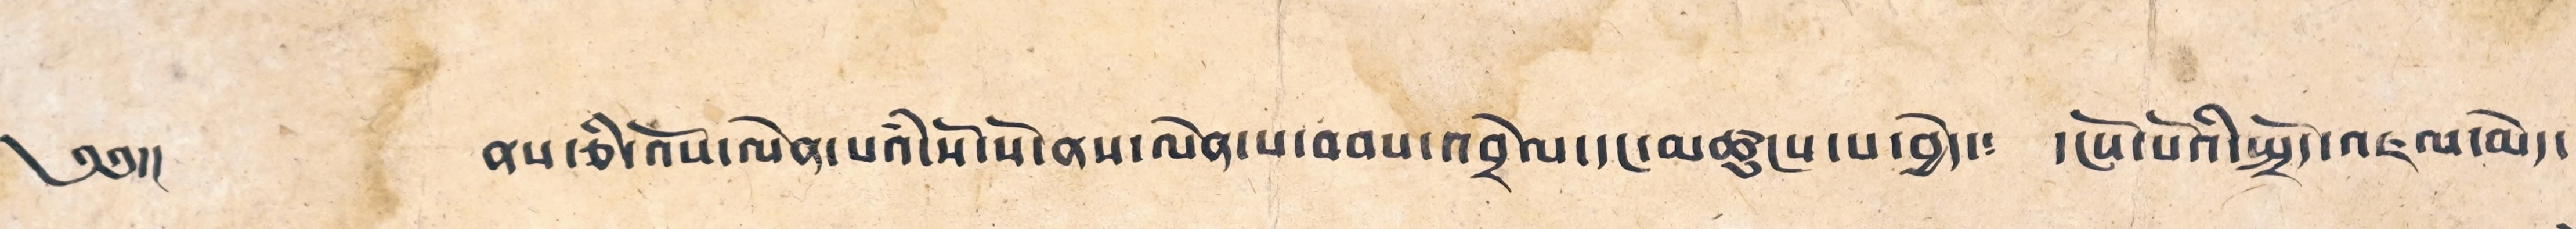༄༅།། ནས་ཅི་འོས་ལེན་པའི་སོ་སོ་ནས་ལེན་པ་བབས་འབྲེལ་དང་མཚངས་པ་བྱེད་༴ དངོས་པོའི་སྤྲོད་འཇལ་མེད་
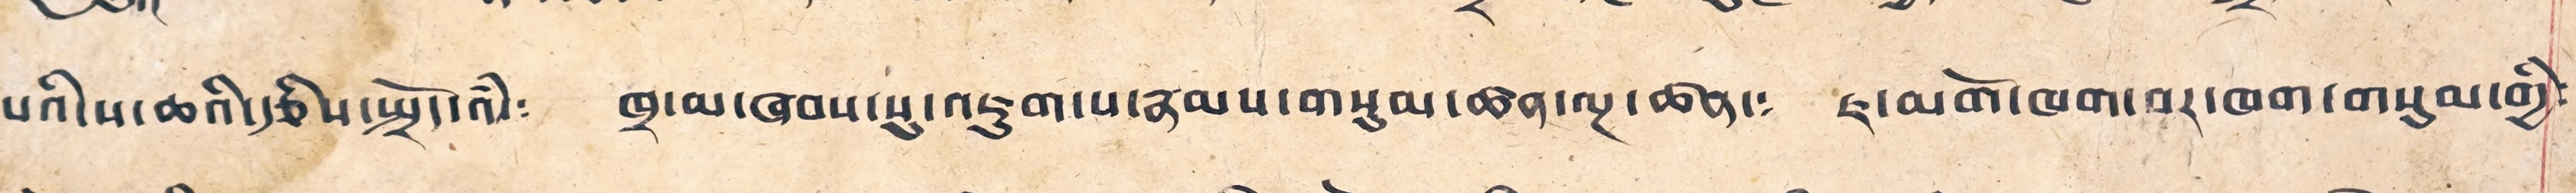པའི་ས་ཆའི་རྩིས་སྤྲོད་འཾ་༴ ཁྲ་མ་ཞབས་སུ་འཇུག་པ་རྣམས་གསུམ་ཚན་ལྔ་ཚན་༴ ཇ་མགོ་ཁག་བར་ཁག་གསུམ་གྱི༴
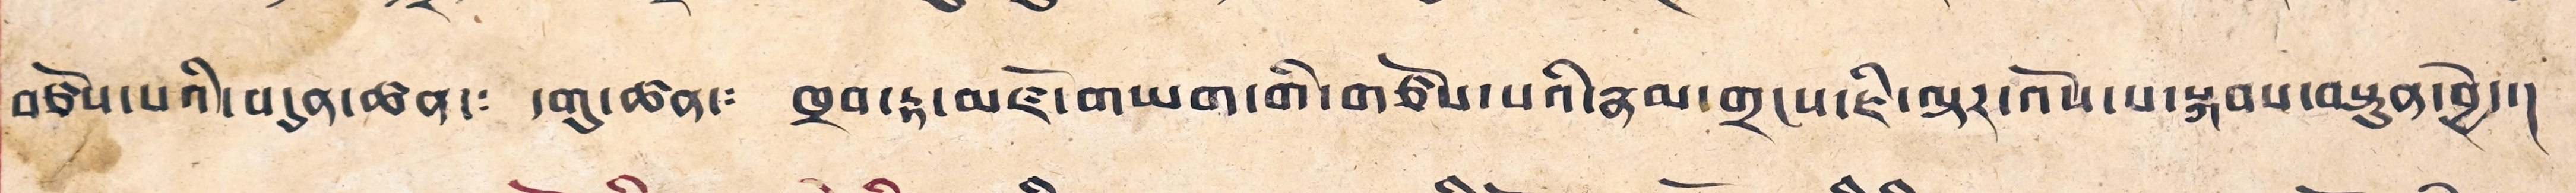བཙོས་པའི་བདུན་ཚན་༴ དགུ་ཚན་༴ ཁྲབ་རྟ་མཛོ་གཡག་གི་གཙོས་པའི་རྣམ་གྲངས་ཇི་ལྟར་འོས་པ་སྐབས་བསྟུན་བྱེད་༴
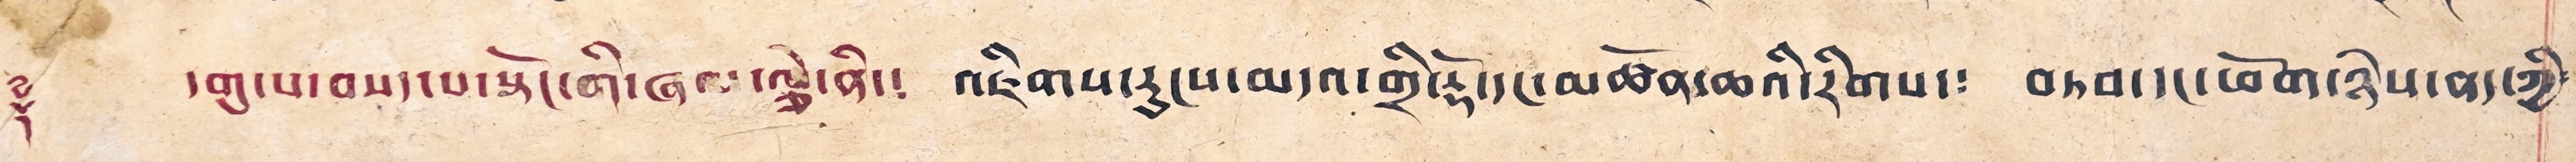༈ དགུ་པ་བསད་པ་སྟོང་གི་ཞལ་ལྕེ་ནི་༴ འཇིགས་རུངས་མདའ་གྲི་རྡོ་དང་མཚོན་ཆའི་རིགས་༴ བཏབ་དང་ཕོག་ཉེས་ནད་ཀྱི༴
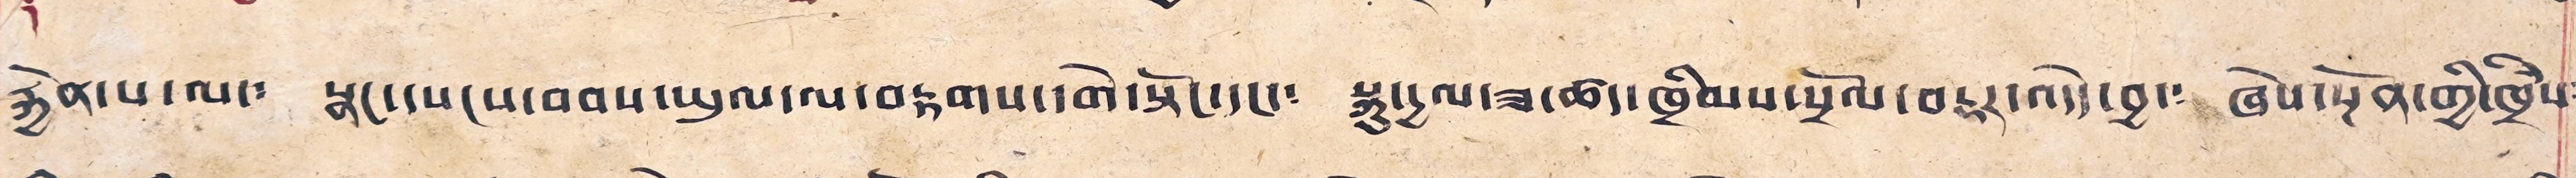རྐྱེན་པ་ལང་། སྣང་དཔངས་བབས་ཡུལ་ལ་བརྟགས་དགེ་སྟོང་དང་། སྐུ་དྱལ་ཟ་ཚད་ཁྱིམས་སྲོལ་བརྡར་འདེད་བྱ་། ཞེས་སྔོན་གྱི་ཁྲིཾས༴
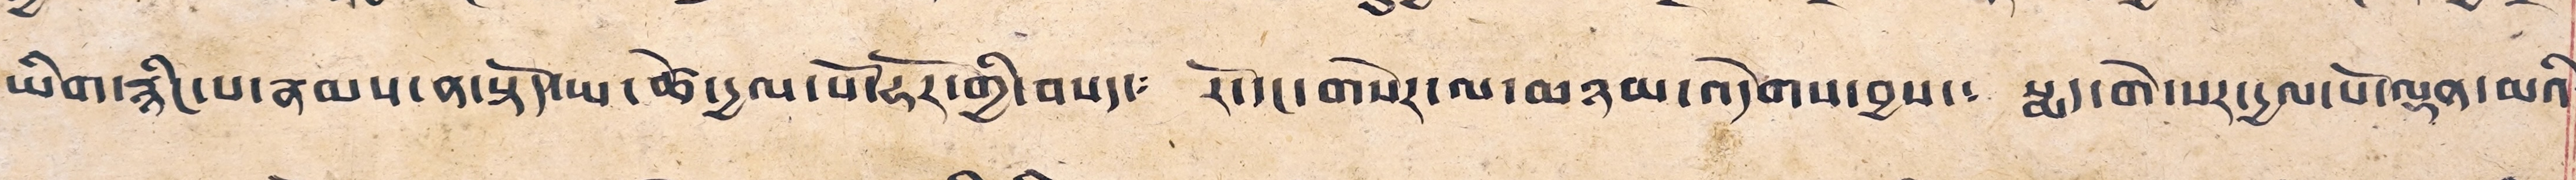ཡིག་རྙིང་པ་རྣམས་ན་སྟོད་ཡ་ཚེ་དྱལ་པོ་ཧོར་གྱི་བསད་༴ རོ་དང་གསེར་ལ་མཉམ་འདེགས་བྱས་༴ སྨད་གེ་སར་དྱལ་པོ་ལྡན་མའི༴
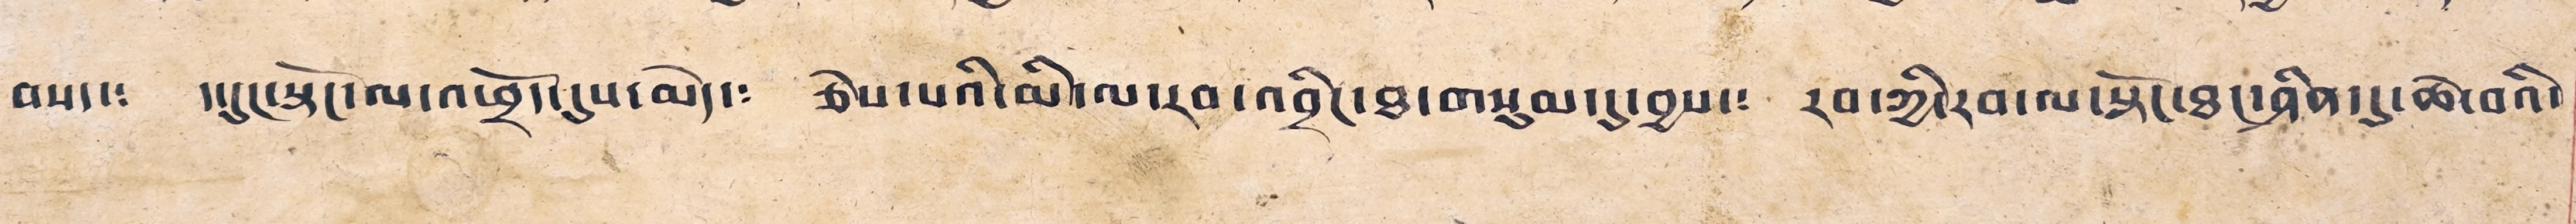བསད་༴ ད་དུང་སྡོང་ལ་འཕྲོད་དུས་མེད་༴ ཅེས་པའི་མི་ལ་རབ་འབྲིང་ཐ་གསུམ་དུ་བྱས་༴ རབ་ཀྱི་རབ་ལ་སྟོང་ཐང་ཤིན་ཏུ་ཆེ་བའི་
